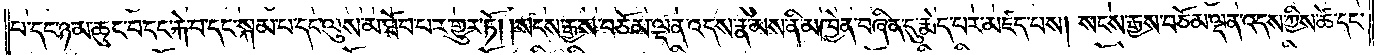པ་དང་ཉམ་ཆུང་བ་དང་རྐེ་བ་དང་སྐམ་པ་དང་ལུས་མ་ཐོབ་པར་གྱུར་ཏོ། །སངས་རྒྱས་བཅོམ་ལྡན་འདས་རྣམས་ནི་མཁྱེན་བཞིན་དུ་རྨེད་པར་མཛད་པས། སངས་རྒྱས་བཅོམ་ལྡན་འདས་ཀྱིས་ཚེ་དང་
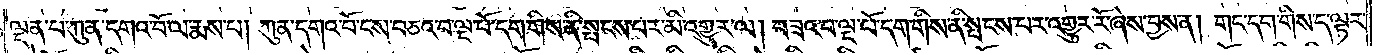ལྡན་པ་ཀུན་དགའ་བོ་ལ་རྨས་པ། ཀུན་དགའ་བོ་ངས་བཅའ་བ་ལྔ་པོ་དག་གིས་ནི་སྤངས་པར་མི་འགྱུར་ལ། བཟའ་བ་ལྔ་པོ་དག་གིས་ནི་སྤངས་པར་འགྱུར་རོ་ཞེས་བྱས་ན། གང་དག་གིས་ད་ལྟར་
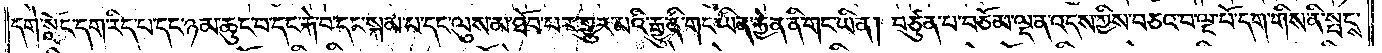དགེ་སློང་དག་རིད་པ་དང་ཉམ་ཆུང་བ་དང་རྐེ་བ་དང་སྐམ་པ་དང་ལུས་མ་ཐོབ་པར་གྱུར་པའི་རྒྱུ་ནི་གང་ཡིན་རྐྱེན་ནི་གང་ཡིན། བཙུན་པ་བཅོམ་ལྡན་འདས་ཀྱིས་བཅའ་བ་ལྔ་པོ་དག་གིས་ནི་སྤངས་
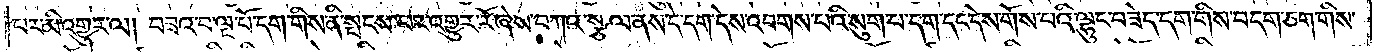པར་མི་འགྱུར་ལ། བཟའ་བ་ལྔ་པོ་དག་གིས་ནི་སྤངས་པར་འགྱུར་རོ་ཞེས་བཀའ་སྩལ་ནས་དེ་དག་དེས་འབགས་པའི་སུག་པ་དག་དང་དས་གོས་པའི་ལྷུང་བཟེད་དག་གིས་བདག་ཅག་གིས་
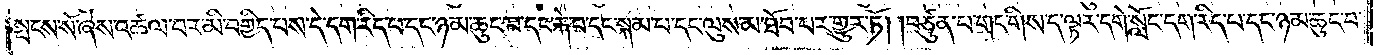སྤངས་སོ་ཞེས་འཚལ་བར་མི་བགྱིད་པས་དེ་དག་རིད་པ་དང་ཉམ་ཆུང་བ་དང་རྐེ་བ་དང་སྐམ་པ་དང་ལུས་མ་ཐོབ་པར་གྱུར་ཏོ། །བཙུན་པ་གང་གིས་ད་ལྟར་དགེ་སློང་དག་རིད་པ་དང་ཉམ་ཆུང་བ་
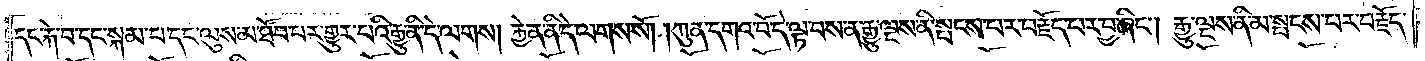དང་རྐེ་བ་དང་སྐམ་པ་དང་ལུས་མ་ཐོབ་པར་གྱུར་པའི་རྒྱུ་ནི་དེ་ལགས། རྐྱེན་ནི་དེ་ལགས་སོ། །ཀུན་དགའ་བོ་དེ་ལྟ་བས་ན་རྒྱུ་ལྔས་ནི་སྤངས་པར་བརྗོད་པར་བྱ་ཞིང༌། རྒྱུ་ལྔས་ནི་མ་སྤངས་པར་བརྗོད་
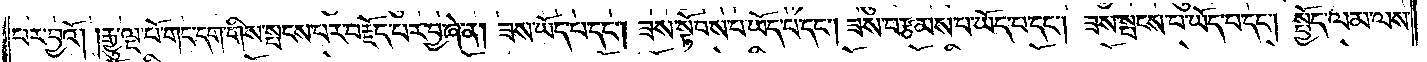པར་བྱའོ། །རྒྱུ་ལྔ་པོ་གང་དག་གིས་སྤངས་པར་བརྗོད་པར་བྱ་ཞེ་ན། ཟས་ཡོད་པ་དང༌། ཟས་སྟོབས་པ་ཡོད་པ་དང༌། ཟས་བརྩམས་པ་ཡོད་པ་དང༌། ཟས་སྤངས་པ་ཡོད་པ་དང༌། སྤྱོད་ལམ་ལས་
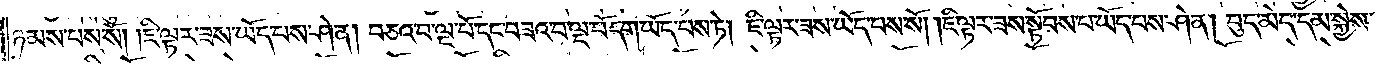ཉམས་པས་སོ། །ཇི་ལྟར་ཟས་ཡོད་པས་ཤེ་ན། བཅའ་བ་ལྔ་པོ་དང་བཟའ་བ་ལྔ་པོ་དག་ཡོད་པས་ཏེ། ཇི་ལྟར་ཟས་ཡོད་པས་སོ། །ཇི་ལྟར་ཟས་སྟོབས་པ་ཡོད་པས་ཤེ་ན། བུད་མེད་དམ་སྐྱེས་
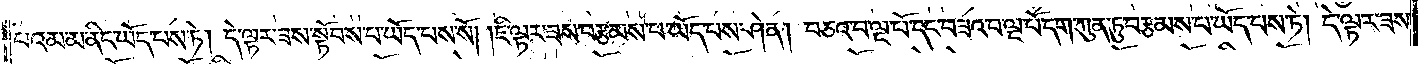པའམ་མ་ནིང་ཡོད་པས་ཏེ། དེ་ལྟར་ཟས་སྟོབས་པ་ཡོད་པས་སོ། །ཇི་ལྟར་ཟས་བརྩམས་པ་ཡོད་པས་ཤེ་ན། བཅའ་བ་ལྔ་པོ་དང་བཟའ་བ་ལྔ་པོ་དག་ཀུན་ཏུ་བརྩམས་པ་ཡོད་པས་ཏེ། དེ་ལྟར་ཟས་
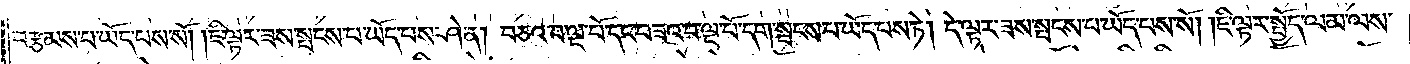བརྩམས་པ་ཡོད་པས་སོ། །ཇི་ལྟར་ཟས་སྤངས་པ་ཡོད་པས་ཤེ་ན། བཅའ་བ་ལྔ་པོ་དང་བཟའ་བ་ལྔ་པོ་དག་སྤངས་པ་ཡོད་པས་ཏེ། དེ་ལྟར་ཟས་སྤངས་པ་ཡོད་པས་སོ། །ཇི་ལྟར་སྤྱོད་ལམ་ལས་
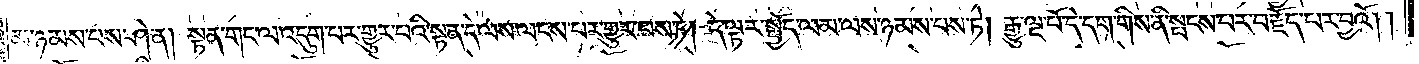མ་ཉམས་པས་ཤེ་ན། སྟན་གང་ལ་འདུག་པར་གྱུར་པའི་སྟན་དེ་ལས་ལངས་པར་གྱུར་པས་ཏེ། དེ་ལྟར་སྤྱོད་ལམ་ལས་ཉམས་པས་ཏེ། རྒྱུ་ལྔ་པོ་དེ་དག་གིས་ནི་སྤངས་པར་བརྗོད་པར་བྱའོ། །
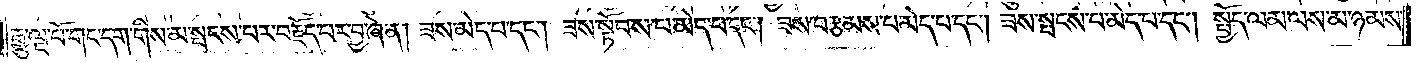རྒྱུ་ལྔ་པོ་གང་དག་གིས་མ་སྤངས་པར་བརྗོད་པར་བྱ་ཞེ་ན། ཟས་མེད་པ་དང༌། ཟས་སྟོབས་པ་མེད་པ་དང༌། ཟས་བརྩམས་པ་མེད་པ་དང༌། ཟས་སྤངས་པ་མེད་པ་དང༌། སྤྱོད་ལམ་ལས་མ་ཉམས་
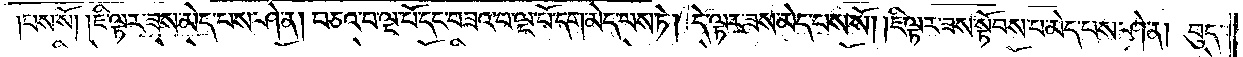པས་སོ། །ཇི་ལྟར་ཟས་མེད་པས་ཤེ་ན། བཅའ་བ་ལྔ་པོ་དང་བཟའ་བ་ལྔ་པོ་དག་མེད་པས་ཏེ། དེ་ལྟར་ཟས་མེད་པས་སོ། །ཇི་ལྟར་ཟས་སྟོབས་པ་མེད་པས་ཤེ་ན། བུད་
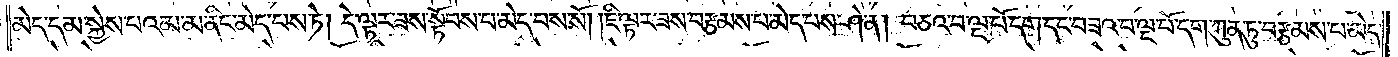མེད་དམ་སྐྱེས་པའམ་མ་ནིང་མེད་པས་ཏེ། དེ་ལྟར་ཟས་སྟོབས་པ་མེད་པས་སོ། །ཇི་ལྟར་ཟས་བརྩམས་པ་མེད་པས་ཤེ་ན། བཅའ་བ་ལྔ་པོ་དག་དང་བཟའ་བ་ལྔ་པོ་དག་ཀུན་ཏུ་བརྩམས་པ་མེད་
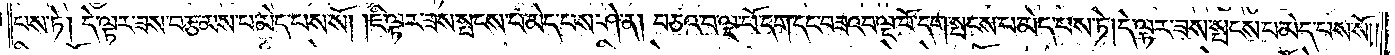པས་ཏེ། དེ་ལྟར་ཟས་བརྩམས་པ་མེད་པས་སོ། །ཇི་ལྟར་ཟས་སྤངས་པ་མེད་པས་ཤེ་ན། བཅའ་བ་ལྔ་པོ་དག་དང་བཟའ་བ་ལྔ་པོ་དག་སྤངས་པ་མེད་པས་ཏེ། དེ་ལྟར་ཟས་སྤངས་པ་མེད་པས་སོ༎
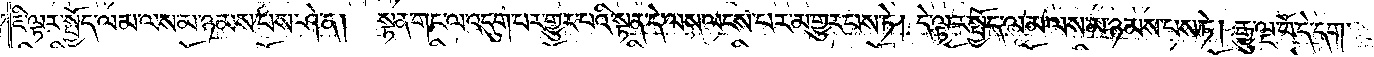ཇི་ལྟར་སྤྱོད་ལམ་ལས་མ་ཉམས་པས་ཤེ་ན། སྟན་གང་ལ་འདུག་པར་གྱུར་པའི་སྟན་དེ་ལས་ལངས་པར་མ་གྱུར་པས་ཏེ། དེ་ལྟར་སྤྱོད་ལམ་ལས་མ་ཉམས་པས་ཏེ། རྒྱུ་ལྔ་པོ་དེ་དག་
